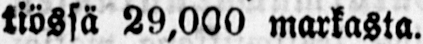tiössä 29,000 markasta.
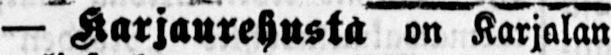— Karjanrehusta on Karjalan
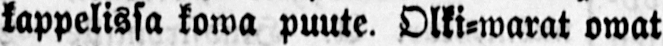kappelissa kowa puute. Olki-warat owat
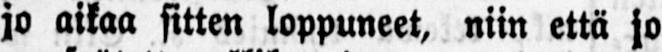jo aikaa sitten loppuneet, niin että jo
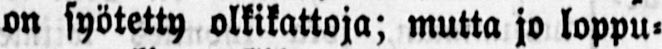on syötetty olkikattoja; mutta jo loppu-
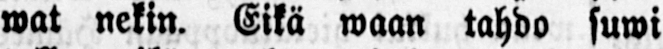wat nekin. Eikä waan tahdo suwi
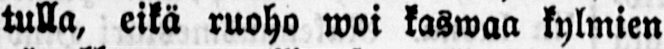tulla, eikä ruoho woi kaswaa kylmien
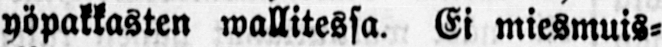yöpakkasten wallitessa. Ei miesmuis-
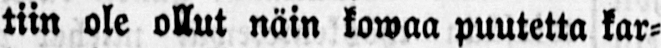tiin ole ollut näin kowaa puutetta kar-
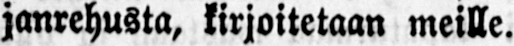janrehusta, kirjoitetaan meille.
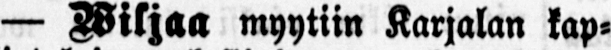— Wiljaa myytiin Karjalan kap-
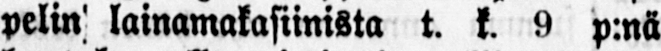pelin lainamakasiinista t. k. 9 p:nä
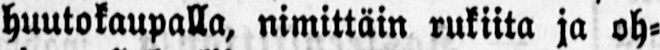huutokaupalla, nimittäin rukiita ja oh-
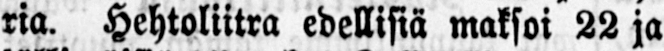ria. Hehtoliitra edellisiä maksoi 22 ja
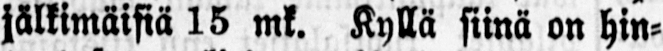jälkimäisiä 15 mk. Kyllä siinä on hin-
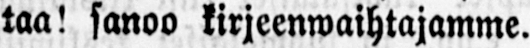taa! sanoo kirjeenwaihtajamme.
